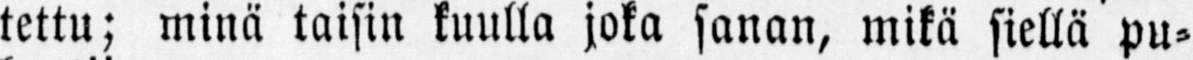tettu; minä taisin kuulla joka sanan, mikä siellä pu-
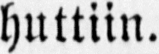huttiin.
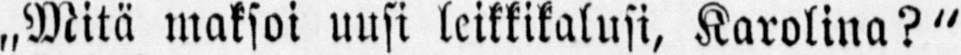„Mitä maksoi uusi leikkikalusi, Karolina?"
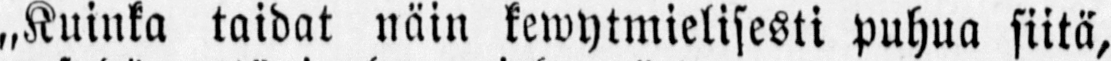„Kuinka taidat näin kewytmielisesti puhua siitä,
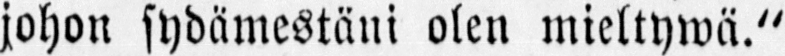johon sydämestäni olen mieltywä."
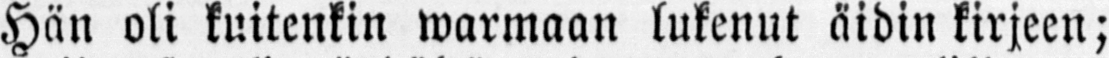Hän oli kuitenkin warmaan lukenut äidin kirjeen;
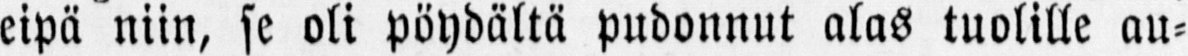eipä niin, se oli pöydältä pudonnut alas tuolille au-
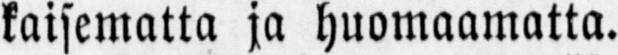kaisematta ja huomaamatta.
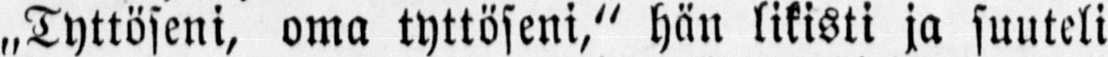„Tyttöseni, oma tyttöseni," hän likisti ja suuteli
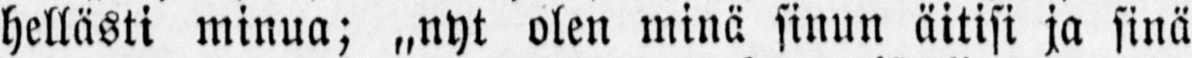hellästi minua; „nyt olen minä sinun äitisi ja sinä
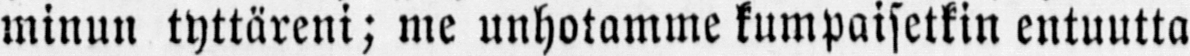minun tyttäreni; me unhotamme kumpaisetkin entuutta
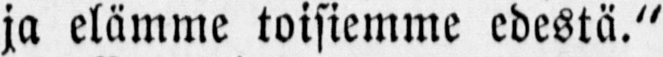ja elämme toisiemme edestä."
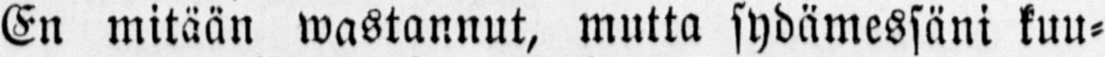En mitään wastannut, mutta sydämessäni kuu-
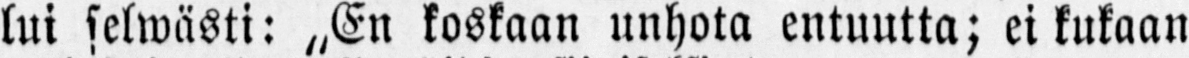lui sellwästi: „En koskaan unhota entuutta; ei kukaan
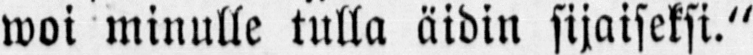woi minulle tulla äidin sijaiseksi."
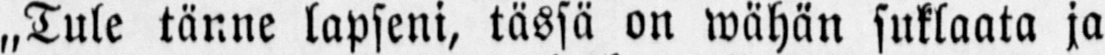„Tule tänne lapseni, tässä on wähän suklaata ja
